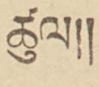ཚུལ།།
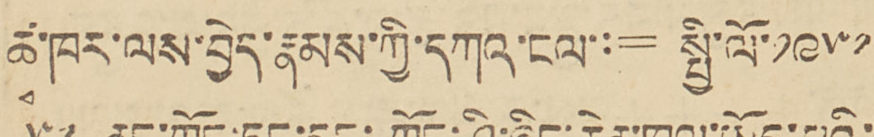ཚྭ་ཁར་ལས་བྱེད་རྣམས་ཀྱི་དཀའ་ངལ་:= སྤྱི་ལོ་༡༩༥༡
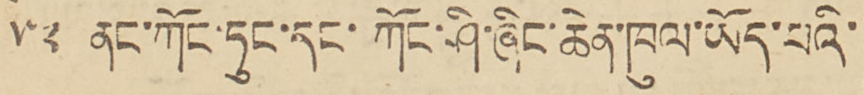༥༢ ནང་ཀོང་ཏུང་དང་ཀོང་ཤི་ཞིང་ཆེན་ཁུལ་ཡོད་པའི་
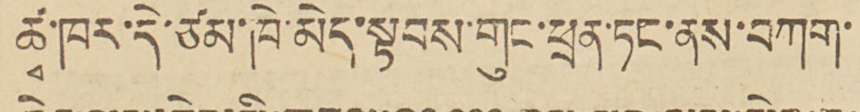ཚྭ་ཁར་དེ་ཙམ་ཁེ་མེད་སྟབས་གུང་ཕྲན་ཏང་ནས་བཀག་
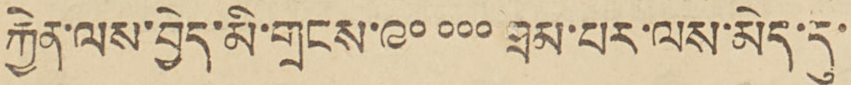རྐྱེན་ལས་བྱེད་མི་གྲངས་༩༠༠༠༠ ཐམ་པར་ལས་མེད་ཅུ་
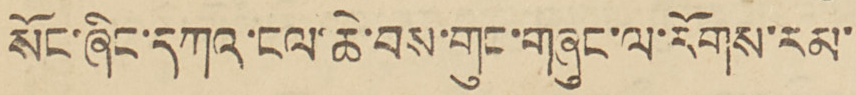སོང་ཞིང་དཀའ་ངལ་ཆེ་བས་གུང་གཞུང་ལ་རོགས་རམ་
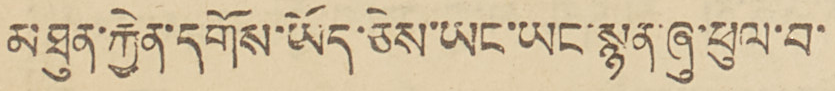མཐུན་རྐྱེན་དགོས་ཡོད་ཅེས་ཡང་ཡང་སྙན་ཞུ་ཕུལ་བ་
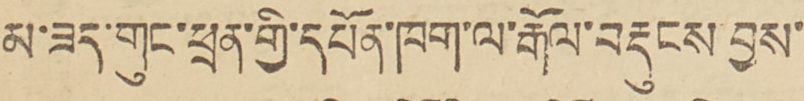མ་ཟད་གུང་ཕྲན་གྱོ་དཔོན་ཁག་ལ་རྒོལ་བརྡུངས་བྱས་
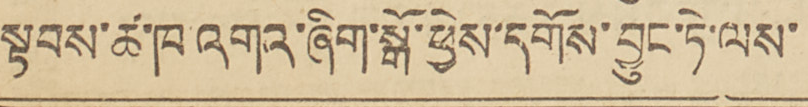སྟབས་ཚ་ཁ འགའ་ཞིག་སྒོ་ཕྱེས་དགོས་བྱུང་ཏེ་ལས་
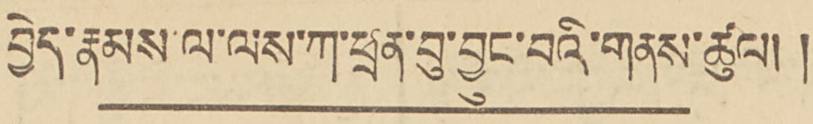བྱེད་རྣམས་ལ་ལས་ཀ་ཕྲན་བུ་བྱུང་བའི་གནས་ཚུལ།།
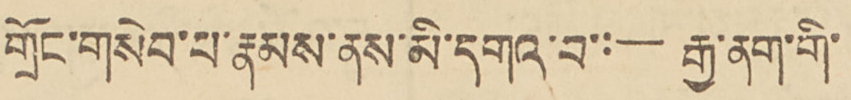གྲོང་གསེབ་ཨོ་རྣམས་ནས་མི་དགའ་བ་:— རྒྱ་ནག་གི་
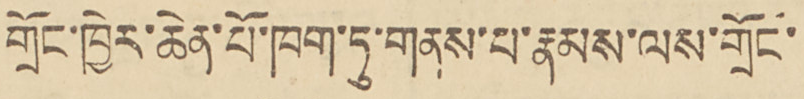གྲོང་ཁྱེར་ཆེན་པོ་ཁག་ཏུ་གནས་པ་རྣམས་ལས་གྲོང་
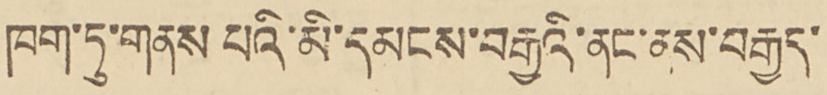ཁག་ཏུ་གནས པའི་མི་དམངས་བརྒྱའི་ནང་མས་བརྒྱད་
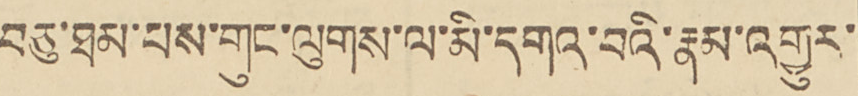བཅུ་ཐམ་པས་གུང་ལུགས་ལ་མི་དགའ་བའི་རྣམ་འགྱུར་
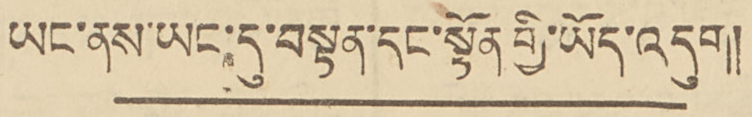ཡང་ནས་ཡང་དུ་བསྟན་དང་སྟོན་གྱི་ཡོད་འདུག།།
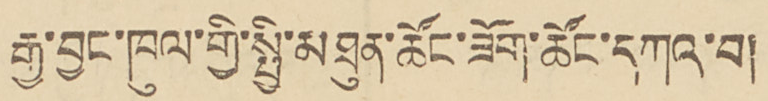རྒྱ་བྱང་ཁུལ་གྱི་སྤྱི་མཐུན་ཚོང་ཟོག་ཚོང་དཀའ་བ།
